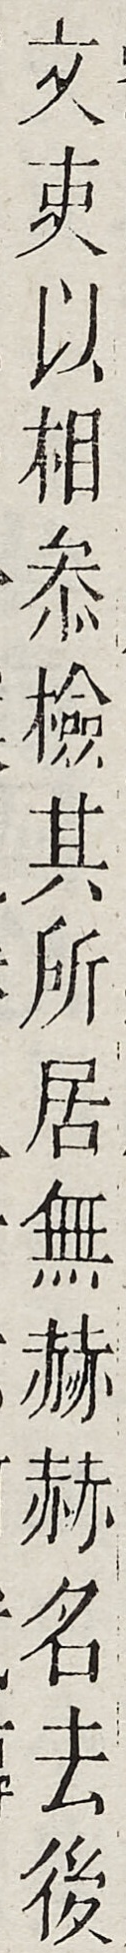文吏以相參檢其所居無赫赫名云後
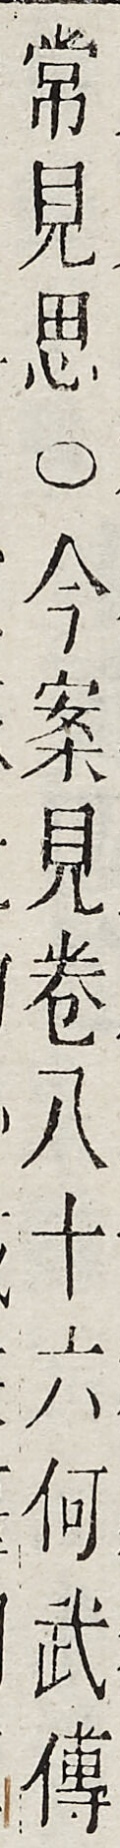常見思○今案見卷八十六何武傳
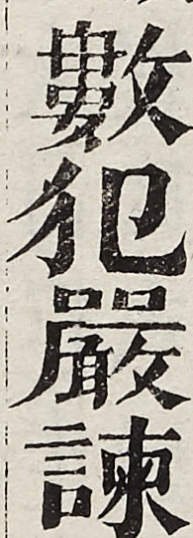數犯嚴諫
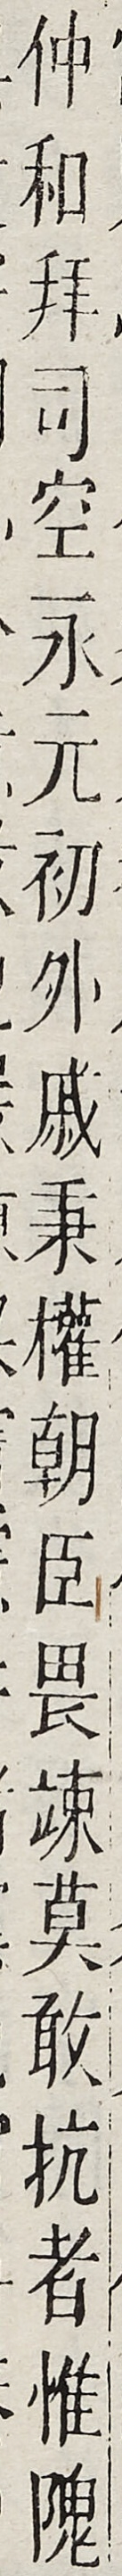仲和拜司空永元初外戚秉權朝臣畏竦莫敢抗者惟隗
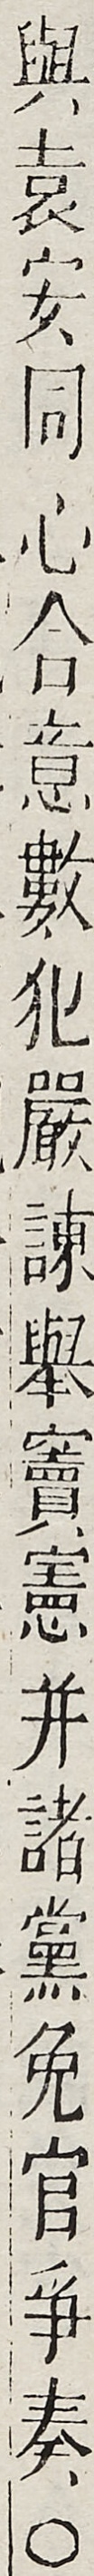與袁安同心合意數犯嚴諫舉竇憲並諸黨免官爭奏○
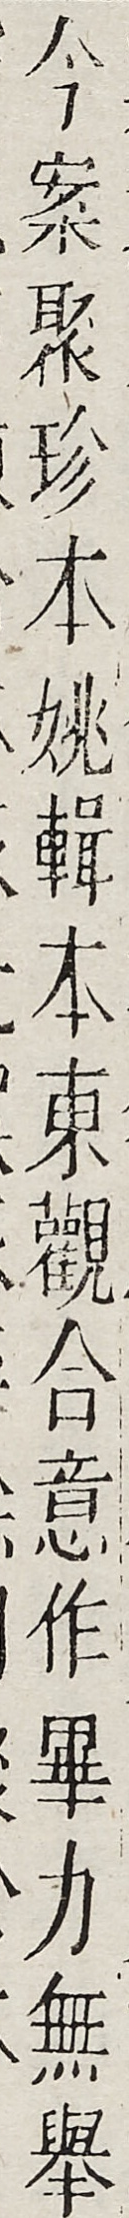今案聚珍本姚輯本東觀合意作畢力無舉
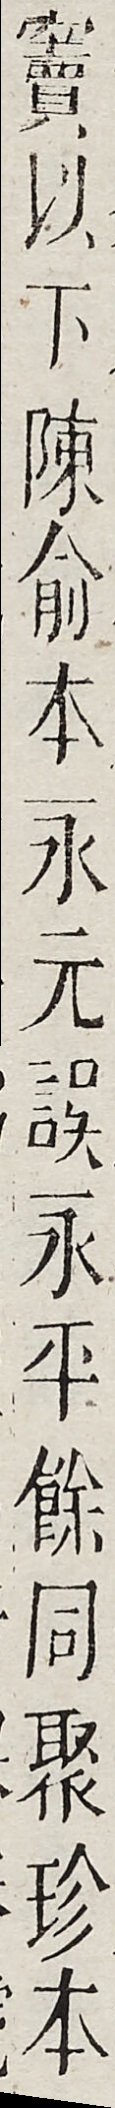實以下陳俞本永元誤永平餘同聚珍本
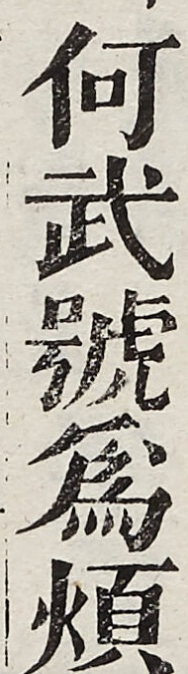何武號為煩
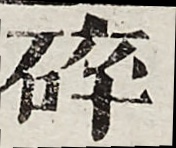碎
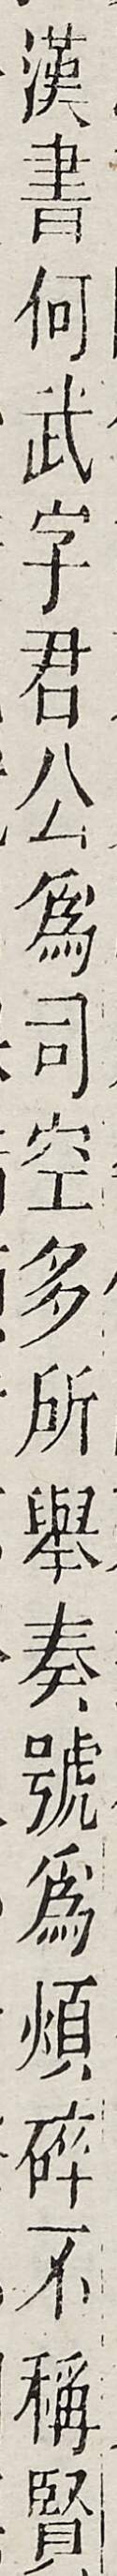漢書何式字君公為司空多所舉奏號為煩碎不稱賢
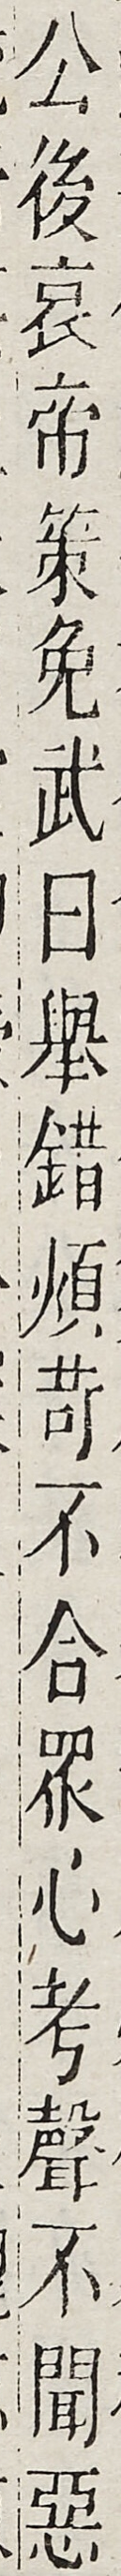公後哀帝策免武曰舉錯煩奇不合眾心考聲不聞惡
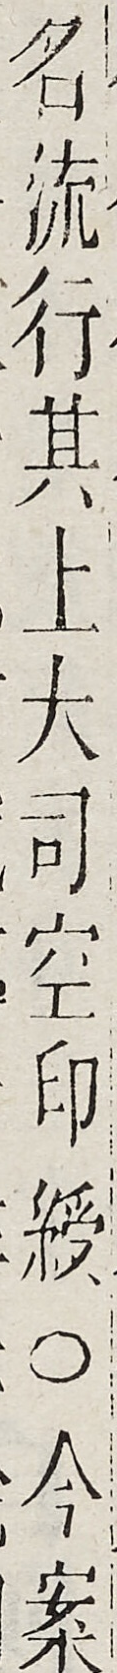名流行其上大司空印綬○今案
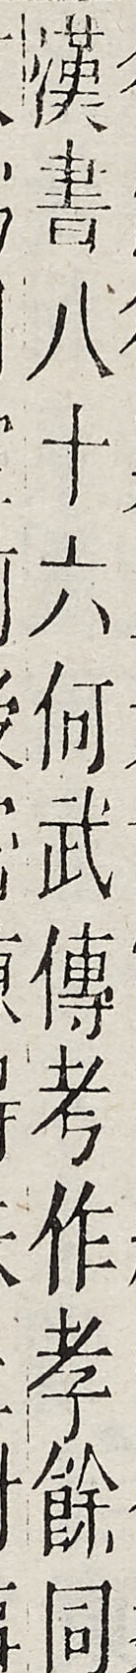聚漢書八十六何武傳考作孝餘同
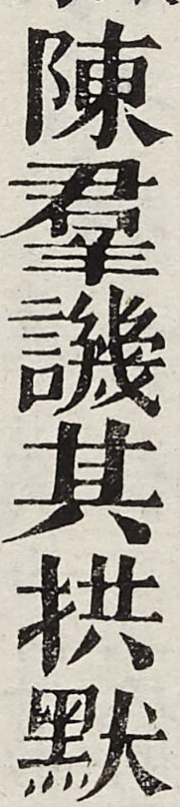陳群譏其拱默
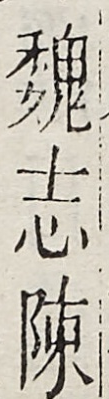魏志陳
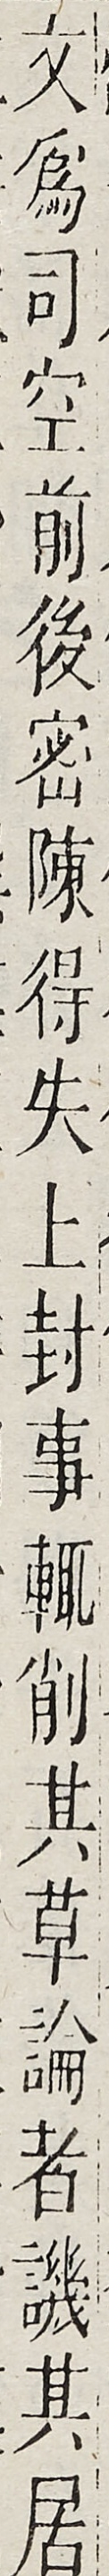文為司空前後密陳得失上封事輒削其萬輪者譏其居
